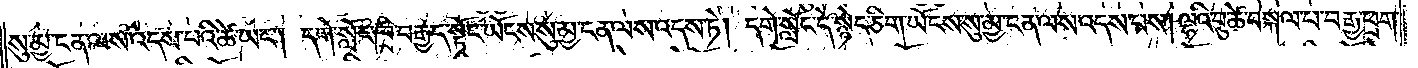སུ་མྱ་ངན་ལས་འདས་པའི་ཚེ་ཡང༌། དགེ་སློང་ཁྲི་བརྒྱད་སྟོང་ཡོངས་སུ་མྱ་ངན་ལས་འདས་ཏེ། དགེ་སློང་དེ་སྙེད་ཅིག་ཡོངས་སུ་མྱ་ངན་ལས་འདས་པས། ལྷའི་བུ་ཚེ་བསྐལ་པ་བརྒྱ་ཕྲག་
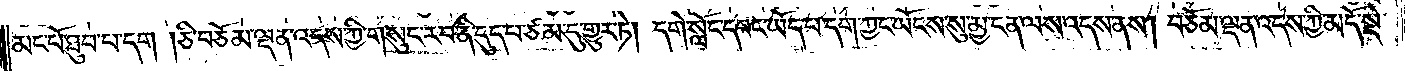མང་པོ་ཐུབ་པ་དག །ཅི་བཅོམ་ལྡན་འདས་ཀྱི་གསུང་རབ་ནི་དུད་པ་ཙམ་དུ་གྱུར་ཏེ། དགེ་སློང་དབང་ཡོད་པ་དག་ཀྱང་ཡོངས་སུ་མྱ་ངན་ལས་འདས་ནས། བཅོམ་ལྡན་འདས་ཀྱི་མདོ་སྡེ་
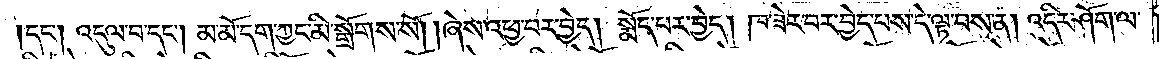།དང༌། འདུལ་བ་དང༌། མ་མོ་དག་ཀྱང་མི་སྒྲོགས་སོ། །ཞེས་འཕྱ་བར་བྱེད། སྨོད་པར་བྱེད། ཁ་ཟེར་བར་བྱེད་པས་དེ་ལྟ་བས་ན། འདིར་ཤོག་ལ་
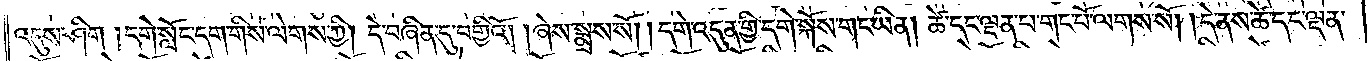འདུས་ཤིག །དགེ་སློང་དག་གིས་ལེགས་ཀྱི། དེ་བཞིན་དུ་བགྱིའོ། །ཞེས་སྨྲས་སོ། །དགེ་འདུན་གྱི་དགེ་སྐོས་གང་ཡིན། ཚེ་དང་ལྡན་པ་གང་པོ་ལགས་སོ། །དེ་ནས་ཚེ་དང་ལྡན་
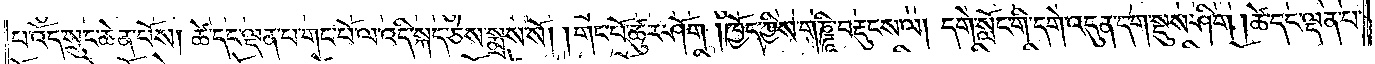པ་འོད་སྲུང་ཆེན་པོས། ཚེ་དང་ལྡན་པ་གང་པོ་ལ་འདི་སྐད་ཅེས་སྨྲས་སོ། །གང་པོ་ཚུར་ཤོག །ཁྱོད་ཀྱིས་གཎྜཱི་བརྡུངས་ལ། དགེ་སློང་གི་དགེ་འདུན་དག་སྡུས་ཤིག །ཚེ་དང་ལྡན་པ་
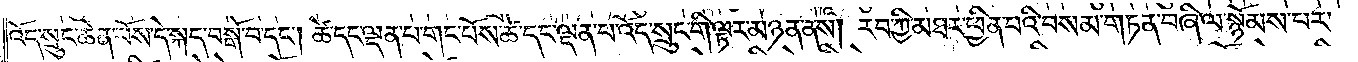འོད་སྲུང་ཆེན་པོས་དེ་སྐད་བསྒོ་བ་དང༌། ཚེ་དང་ལྡན་པ་གང་པོས་ཚེ་དང་ལྡན་པ་འོད་སྲུང་གི་ལྟར་མཉན་ནས། རབ་ཀྱི་མཐར་ཕྱིན་པའི་བསམ་གཏན་བཞི་ལ་སྙོམས་པར་
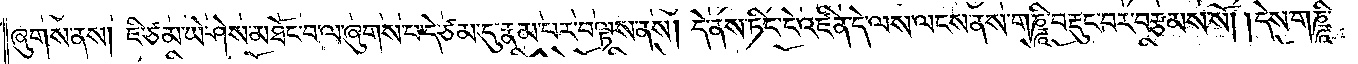ཞུགས་ནས། ཇི་ཙམ་ཡེ་ཤེས་མཐོང་བ་ལ་ཞུགས་པ་དེ་ཙམ་དུ་རྣམ་པར་བལྟས་ནས། དེ་ནས་ཏིང་ངེ་འཛིན་དེ་ལས་ལངས་ནས་གཎྜཱི་བརྡུང་བར་བརྩམས་སོ། །དེས་གཎྜཱི་
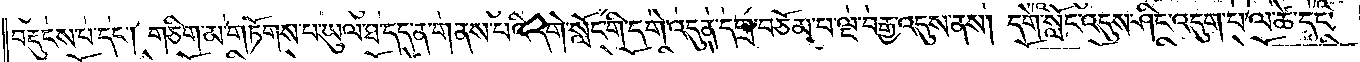བརྡུངས་པ་དང༌། གཅིག་མ་གཏོགས་པ་ཡུལ་ཐ་དད་ན་གནས་པའི་དགེ་སློང་གི་དགེ་འདུན་དགྲ་བཅོམ་པ་ལྔ་བརྒྱ་འདུས་ནས། དགེ་སློང་འདུས་ཤིང་འདུག་པ་ལ་ཚེ་དང་
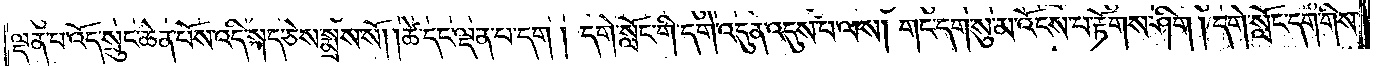ལྡན་པ་འོད་སྲུང་ཆེན་པོས་འདི་སྐད་ཅེས་སྨྲས་སོ། །ཚེ་དང་ལྡན་པ་དག །དགེ་སློང་གི་དགེ་འདུན་འདུས་པ་ལས། གང་དག་སུ་མ་འོངས་པ་རྟོགས་ཤིག །དགེ་སློང་དག་གིས་
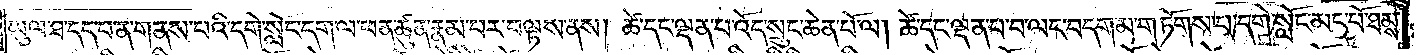ཡུལ་ཐ་དད་པ་ན་གནས་པའི་དགེ་སློང་དག་ལ་ཕན་ཚུན་རྣམ་པར་བལྟས་ནས། ཚེ་དང་ལྡན་པ་འོད་སྲུང་ཆེན་པོ་ལ། ཚེ་དང་ལྡན་པ་བ་ལང་བདག་མ་གཏོགས་པ་དགེ་སློང་མང་པོ་ཐམས་
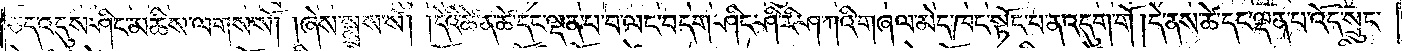ཅད་འདུས་ཤིང་མཆིས་ལགས་སོ། །ཞེས་སྨྲས་སོ། །དེའི་ཚེ་ན་ཚེ་དང་ལྡན་པ་བ་ལང་བདག་ཤིང་ཤི་རི་ཤ་ཀའི་གཞལ་མེད་ཁང་སྟོང་བ་ན་འདུག་གོ །དེ་ནས་ཚེ་དང་ལྡན་པ་འོད་སྲུང་
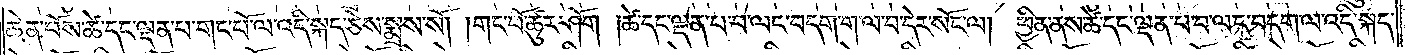ཆེན་པོས་ཚེ་དང་ལྡན་པ་གང་པོ་ལ་འདི་སྐད་ཅེས་སྨྲས་སོ། །གང་པོ་ཚུར་ཤོག །ཚེ་དང་ལྡན་པ་བ་ལང་བདག་ག་ལ་བ་དེར་སོང་ལ། ཕྱིན་ནས་ཚེ་དང་ལྡན་པ་བ་ལང་བདག་ལ་འདི་སྐད་
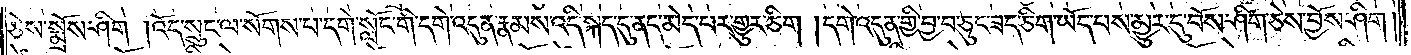ཅེས་སྨྲོས་ཤིག །འོད་སྲུང་ལ་སོགས་པ་དགེ་སློང་གི་དགེ་འདུན་རྣམས་འདི་སྐད་དུ་ནད་མེད་པར་གྱུར་ཅིག །དགེ་འདུན་གྱི་བྱ་བ་ཅུང་ཟད་ཅིག་ཡོད་པས་མྱུར་དུ་བོས་ཤིག་ཅེས་བྱོས་ཤིག་
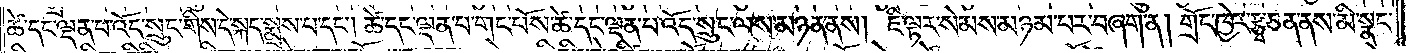ཚེ་དང་ལྡན་པ་འོད་སྲུང་གིས་དེ་སྐད་སྨྲས་པ་དང༌། ཚེ་དང་ལྡན་པ་གང་པོས་ཚེ་དང་ལྡན་པ་འོད་སྲུང་ལས་མཉན་ནས། ཇི་ལྟར་སེམས་མཉམ་པར་བཞག་ན། གྲོང་ཁྱེར་རྩྭ་ཅན་ནས་མི་སྣང་
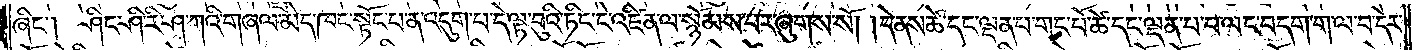ཞིང༌། ཤིང་ཤི་རི་ཤ་ཀའི་གཞལ་མེད་ཁང་སྟོང་པ་ན་འདུག་པ་དེ་ལྟ་བུའི་ཏིང་ངེ་འཛིན་ལ་སྙོམས་བར་ཞུགས་སོ། །དེ་ནས་ཚེ་དང་ལྡན་པ་གང་པོ་ཚེ་དང་ལྡན་པ་བ་ལང་བདག་ག་ལ་བ་དེར་
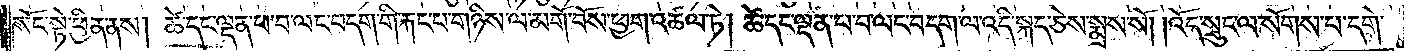སོང་སྟེ་ཕྱིན་ནས། ཚེ་དང་ལྡན་པ་བ་ལང་བདག་གི་རྐང་པ་གཉིས་ལ་མགོ་བོས་ཕྱག་འཚལ་ཏེ། ཚེ་དང་ལྡན་པ་བ་ལང་བདག་ལ་འདི་སྐད་ཅེས་སྨྲས་སོ། །འོད་སྲུང་ལ་སོགས་པ་དགེ་
